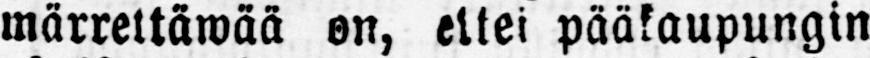märreltäwää on, ettei pääkaupungin
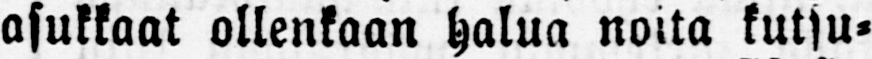asukkaat ollenkaan halua noita kutsu-
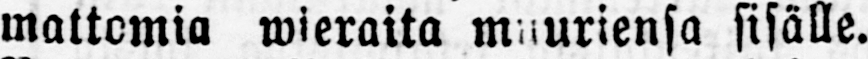mattomia wieraita muuriensa sisälle.
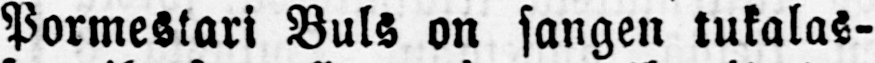Pormestari Buls on sangen tukalas-
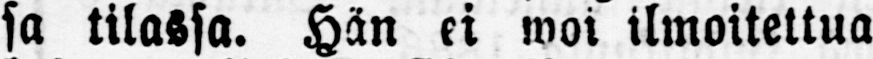sa tilassa. Hän ei woi ilmoitettua
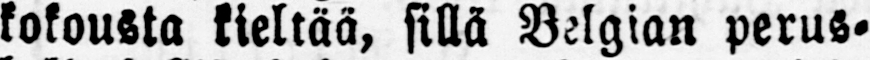kokousta kieltää, sillä Belgian perus-
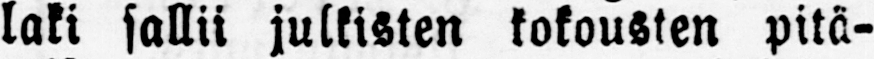laki sallii julkisten kokousten pitä-
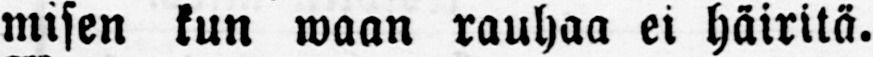misen kun waan rauhaa ei häiritä.
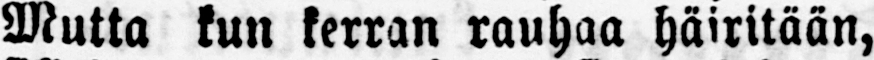Mutta kun kerran rauhaa häiritään,
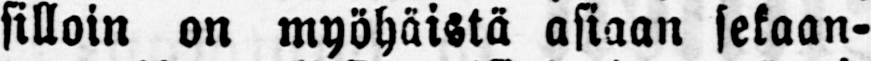silloin on myöhäistä asiaan sekaan-
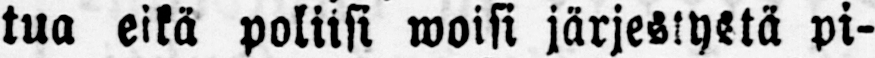tua eikä poliisi woisi järjestystä pi-
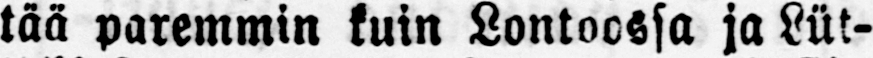tää paremmin kuin Lontoossa ja Lut-
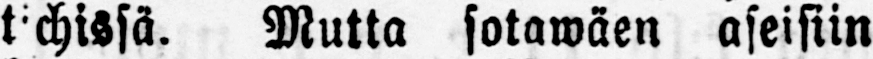t chissä. Mutta sotawäen aseisiin
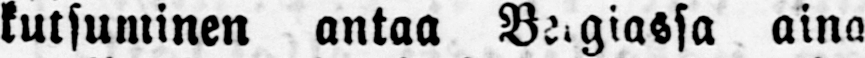kutsuminen antaa Belgiassa aina
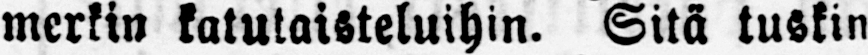merkin katutaisteluihin. Sitä tuskin
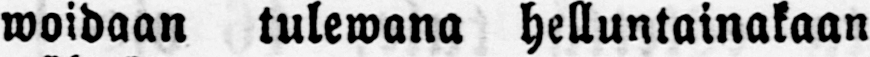woidaan tulewana helluntainakaan
